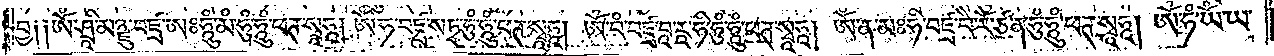བྱ༑ ༑ཨོཾ་ཤྲཱི་མཉྫུ་བཛྲ་ཨཿཧཱུཾ་མཾ་ཧུཾ་ཧཱུཾ་ཕཊ་སྭཱཧཱ། ཨོཾ་ཧ་བཛྲ་སཏྭ་ཧུཾ་ཧཱུཾ་ཕཊ་སྭཱཧཱ། ཨོཾ་བཾ་བཛྲ་བཱ་རཱ་ཧི་ཧུཾ་ཧཱུཾ་ཕཊ་སྭཱཧཱ། ཨོཾ་ན་མཿཧི་བཛྲ་བཻ་རོ་ཙ་ན་ཧཱུཾ་ཧཱུཾ་ཕཊ་སྭཱཧཱ། ཨོཾ་ཧཾ་ཡོཾ་ཡ་
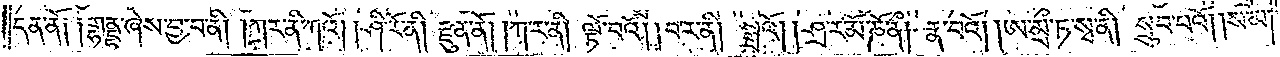དན་ནོ༑ ༑གྷནྡྷ་ཞེས་བྱ་བ་ནི། །ཀ་ར་ནི་ཀའོ། །ཤི་རོ་ནི། རྫུན་ནོ། །ཀ་ར་ནི། ལྟོ་བའོ། །བ་ར་ནི། སྒྲའོ། །ཤྲ་ར་མོ་ཎོ་ནྀ། རྣ་བའོ། །ཨ་མྲྀ་ཏ་སྭ་ནི། སྲུབ་པའོ། །ས་མ་
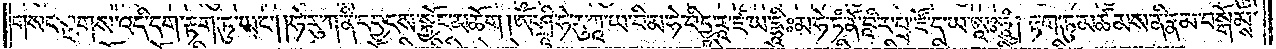གསང་སྔགས་འདི་དག་རྟག་ཏུ་ཡང༌། །ཧེ་རུ་ཀ་ནི་དབྱངས་སྐྱོང་མཆོག །ཨོཾ་ཤྲཱི་ཧེ་རུ་ཀཱ་ཡ་བི་མ་ཧེ་བིདྱཱ་རཱ་ཛ་ཡ་དྷཱིཿམ་ཧེ་ཏཾ་ནོ་བཱི་ར་པྲ་ཛོ་ད་ཡ་ཨཱཿ ཧཱུཾ། རྟག་ཏུ་མཚམས་ནི་རྣམ་བསྒོམས་
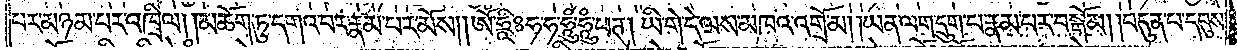པར་མཉམ་པར་འཁྲིལ། །མཆོག་ཏུ་དགའ་བར་རྣམ་པར་མོས། །ཨོཾ་ཧྲཱིཿ ཧ་ཧ་ཧཱུཾ་ཧཱུཾ་ཕཊ། ཡི་གེ་དེ་ལས་མཁའ་འགྲོ་མ། །ཡན་ལག་དྲུག་པ་རྣམ་པར་བསྒོམ། །བདུན་པ་དབུས་
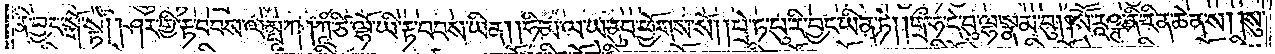ནི་བྱང་སྒོ་སྟེ། །ཤར་གྱི་རྟ་བབས་ལམྤཱ་ཀ །ཀཱཾ་ཙི་ལྷོ་ཡི་རྟ་བབས་ཡིན། །ཧི་མ་ལ་ཡ་ནུབ་ཕྱོགས་སོ། །པྲེ་ཏ་པུ་རི་བྱང་ཡིན་ཏེ། །གྲྀ་ཧ་དེ་བུ་ལྷ་སྣམ་བུ། །སཽ་རཱཥྚ་ནི་རིན་ཆེན་ས། །སུ་
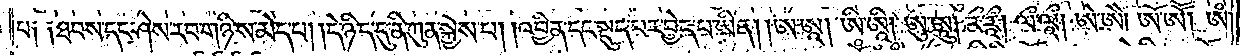པ༑ ༑ཐབས་དང་ཤེས་རབ་གཉིས་མེད་པ། །དེ་ཉིད་དུ་ནི་ཀུན་སྐྱེས་པ། །འབྱིན་དང་སྡུད་པར་བྱེད་པ་ཡིན། །ཨ་ཨཱ། ཨི་ཨཱི། ཨུ་ཨཱུ། རྀ་རཱྀ། ལྀ་ལཱྀ། ཨེ་ཨཻ། ཨོ་ཨཽ། ཨཾ་
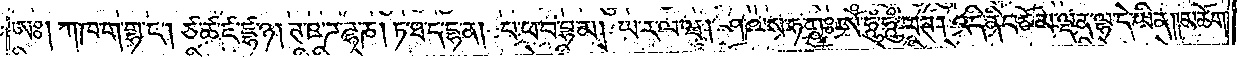ཨཿ། ཀ་ཁ་ག་གྷ་ང༌། ཙ་ཚ་ཛ་ཛྷ་ཉ། ཊ་ཋ་ཌ་ཌྷ་ཎ། ཏ་ཐ་ད་དྷ་ན། པ་ཕ་བ་བྷ་མ། ཡ་ར་ལ་ཝ། ཤ་ཥ་ས་ཧ་ཀྵཿ ཨོཾ་ཧཱུཾ་ཧཱུཾ་ཕཊ། འདི་ནི་བཅོམ་ལྡན་ལྷ་དེ་ཡིན། །མཆོག་
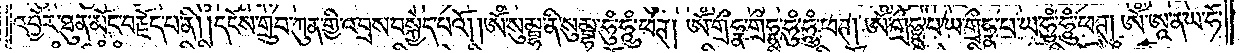འབྱོར་ཐུན་མོང་བརྗོད་པ་ནི། །དངོས་གྲུབ་ཀུན་གྱི་འབྲས་བསྐྱེད་པའོ། །ཨོཾ་སུམྦྷ་ནི་སུམྦྷ་ཧུཾ་ཧཱུཾ་ཕཊ། ཨོཾ་གྲྀཧྣ་གྲྀཧྣ་ཧུཾ་ཧཱུཾ་ཕཊ། ཨོཾ་གྲྀཧྣ་པ་ཡ་གྲྀཧྣ་པ་ཡ་ཧུཾ་ཧཱུཾ་ཕཊ། ཨོཾ་ཨཱ་ན་ཡ་ཧོ་
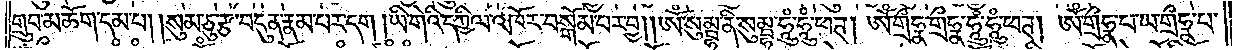གྲུབ་མཆོག་དམ་པ། །སུམ་ཅུ་རྩ་བདུན་རྣམ་པར་དག །ཡི་གེའི་དཀྱིལ་འཁོར་བསྒོམ་པར་བྱ། །ཨོཾ་སུམྦྷ་ནི་སུམྦྷ་ཧཱུཾ་ཧཱུཾ་ཕཊ། ཨོཾ་གྲྀཧྣ་གྲྀཧྣ་ཧཱུཾ་ཧཱུཾ་ཕཊ། ཨོཾ་གྲྀཧྣ་པ་ཡ་གྲྀཧྣ་པ་
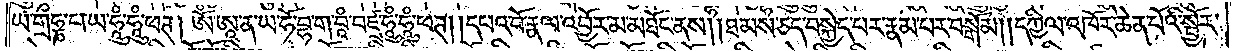ཡ་གྲྀཧྞ་པ་ཡ་ཧཱུཾ་ཧཱུཾ་ཕཊ། ཨོཾ་ཨཱ་ན་ཡ་ཧོ་བྷ་ག་བཱཾ་བཛྲ་ཧཱུཾ་ཧཱུཾ་ཕཊ། །དཔའ་བོ་རྣལ་འབྱོར་མ་མཐོང་ནས། །ཐམས་ཅད་བསྐྱེད་པར་རྣམ་པར་བསྒོམ། །དཀྱིལ་འཁོར་ཆེན་པོའི་སྦྱོར་
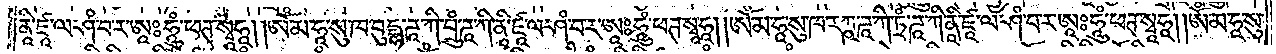ནཱི་ཛཱ་ལ་ཤཾ་བ་ར་ཨཱཿ ཧཱུཾ་ཕཊ་སྭཱཧཱ། །ཨོཾ་མ་ཧཱ་སུ་ཁ་བུདྡྷ་ཌཱ་ཀ་བྲུཾ་ཌཱ་ཀི་ནཱི་ཛཱ་ལ་ཤཾ་བ་ར་ཨཱཿ ཧཱུཾ་ཕཊ་སྭཱཧཱ། །ཨོཾ་མ་ཧཱ་སུ་ཁ་རཀྵ་ཌཱ་ཀ་ཏྲཾ་ཌཱ་ཀི་ནཱི་ཛཱ་ལ་ཤཾ་བ་ར་ཨཱཿ ཧཱུཾ་ཕཊ་སྭཱཧཱ། །ཨོཾ་མ་ཧཱ་སུ་
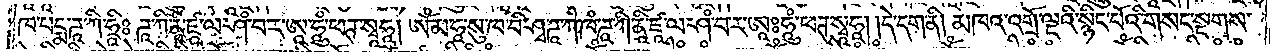ཁ་པདྨ་ཌཱ་ཀི་ཧྲཱིཿ ཌཱ་ཀི་ནཱི་ཛཱ་ལ་ཤཾ་བ་ར་ཨཱ་ཧཱུཾ་ཕཊ་སྭཱཧཱ། ཨོཾ་མ་ཧཱ་སུ་ཁ་བི་ཤྭ་ཌཱ་ཀ་ཁཾ་ཌཱ་ཀི་ནཱི་ཛཱ་ལ་ཤཾ་བ་ར་ཨཱཿ ཧཱུཾ་ཕཊ་སྭཱཧཱ། །དེ་དག་ནི། མཁའ་འགྲོ་ལྔའི་སྙིང་པོའི་གསང་སྔགས་
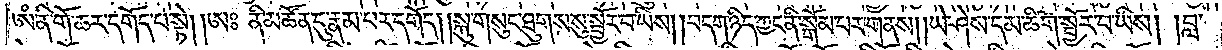ཨཾ་ནི་གོ་ཆར་དགོད་པ་སྟེ། །ཨཿ ནི་མཚོན་དུ་རྣམ་པར་དགོད། །སྐུ་གསུང་ཐུགས་སུ་སྦྱོར་པ་ཡིས། །བདག་ཉིད་ཀྱང་ནི་སྒོམ་པར་གནས། །ཡེ་ཤེས་དམ་ཚིག་སྦྱོར་བ་ཡིས། །བླ་
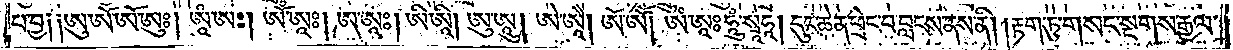པ་བྱ༑ ༑ཨུ་ཨོ་ཨོ་ཨུཿ། ཨཱཾ་ཨཿ། ཨོཾ་ཨཱཿ། ཨ་ཨཱཿ། ཨི་ཨཱི། ཨུ་ཨཱུ། ཨེ་ཨཱཻ། ཨོ་ཨཽ། ཨཾ་ཨཱཿ ཧཱུཾ་སྭཱཧཱ། དུང་ཆེན་ཕྲེང་བ་བླངས་ནས་ནི། །རྟག་ཏུ་གསང་སྔགས་རྒྱལ་
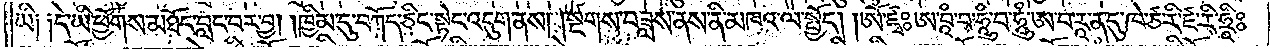ཡི༑ ༑དེ་ཡི་ཕྱོགས་མཐོང་བླང་བར་བྱ། །ཁྱིམ་དུ་བཀོད་ཅིང་སྟེང་འདུག་ནས། །སྔགས་བཟླས་ནས་ནི་མཁའ་ལ་སྤྱོད། །ཨོཾ་ཛྭཿ ཨ་བཱཾ་བ་ཧཱུཾ་བ་ཧཱུཾ་ཨ་བ་རཱ་ན་དུ་ཁེ་ཙ་རི་ཛ་རི་ཧྲཱིཿ
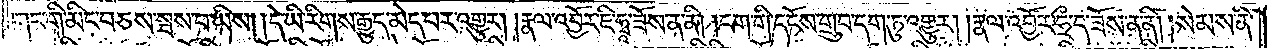གང་གི་མིང་བཅས་སྦས་པ་ཡིས། །དེ་ཡི་རིགས་རྒྱུད་མེད་པར་འགྱུར། །རྣལ་འབྱོར་ཇི་ཧྭཱ་ཟོས་ན་ནི། །ངག་གི་དངོས་གྲུབ་དག་ཏུ་འགྱུར། །རྣལ་འབྱོར་ཧྲྀ་ད་ཟོས་ན་ནི། །སེམས་ནི་
